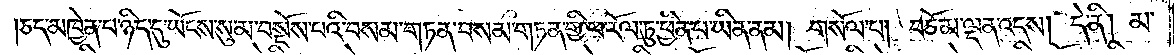ཅད་མཁྱེན་པ་ཉིད་དུ་ཡོངས་སུ་མ་བསྔོས་པའི་བསམ་གཏན་བསམ་གཏན་གྱི་ཕ་རོལ་ཏུ་ཕྱིན་པ་ཡིན་ནམ། གསོལ་པ། བཅོམ་ལྡན་འདས། དེ་ནི། མ་
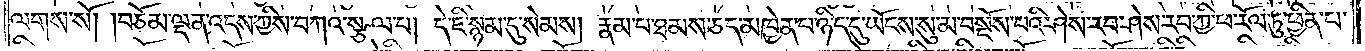ལགས་སོ། །བཅོམ་ལྡན་འདས་ཀྱིས་བཀའ་སྩལ་པ། དེ་ཇི་སྙམ་དུ་སེམས། རྣམ་པ་ཐམས་ཅད་མཁྱེན་པ་ཉིད་དུ་ཡོངས་སུ་མ་བསྔོས་པའི་ཤེས་རབ་ཀྱི་ཕ་རོལ་ཏུ་ཕྱིན་པ་
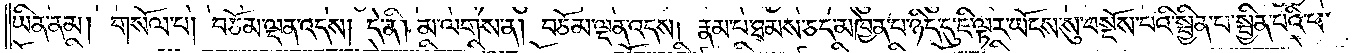ཡིན་ནམ། གསོལ་པ། བཅོམ་ལྡན་འདས། དེ་ནི། མ་ལགས་ན། བཅོམ་ལྡན་འདས། རྣམ་པ་ཐམས་ཅད་མཁྱེན་པ་ཉིད་དུ་ཇི་ལྟར་ཡོངས་སུ་བསྔོས་པའི་སྦྱིན་པ་སྦྱིན་པའི་ཕ་
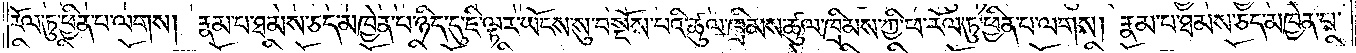རོལ་ཏུ་ཕྱིན་པ་ལགས། རྣམ་པ་ཐམས་ཅད་མཁྱེན་པ་ཉིད་དུ་ཇི་ལྟར་ཡོངས་སུ་བསྔོས་པའི་ཚུལ་ཁྲིམས་ཚུལ་ཁྲིམས་ཀྱི་ཕ་རོལ་ཏུ་ཕྱིན་པ་ལགས། རྣམ་པ་ཐམས་ཅད་མཁྱེན་པ་
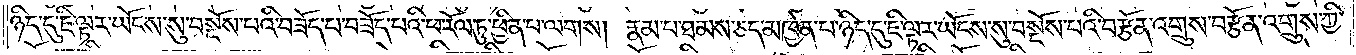ཉིད་དུ་ཇི་ལྟར་ཡོངས་སུ་བསྔོས་པའི་བཟོད་པ་བཟོད་པའི་ཕ་རོལ་ཏུ་ཕྱིན་པ་ལགས། རྣམ་པ་ཐམས་ཅད་མཁྱེན་པ་ཉིད་དུ་ཇི་ལྟར་ཡོངས་སུ་བསྔོས་པའི་བརྩོན་འགྲུས་བརྩོན་འགྲུས་ཀྱི་
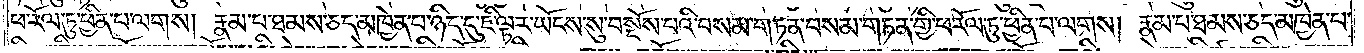ཕ་རོལ་ཏུ་ཕྱིན་པ་ལགས། རྣམ་པ་ཐམས་ཅད་མཁྱེན་པ་ཉིད་དུ་ཇི་ལྟར་ཡོངས་སུ་བསྔོས་པའི་བསམ་གཏན་བསམ་གཏན་གྱི་ཕ་རོལ་ཏུ་ཕྱིན་པ་ལགས། རྣམ་པ་ཐམས་ཅད་མཁྱེན་པ་
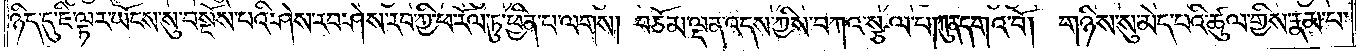ཉིད་དུ་ཇི་ལྟར་ཡོངས་སུ་བསྔོས་པའི་ཤེས་རབ་ཤེས་རབ་ཀྱི་ཕ་རོལ་ཏུ་ཕྱིན་པ་ལགས། བཅོམ་ལྡན་འདས་ཀྱིས་བཀའ་སྩལ་པ།ཀུན་དགའ་བོ། གཉིས་སུ་མེད་པའི་ཚུལ་གྱིས་རྣམ་པ་
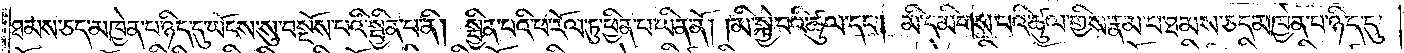ཐམས་ཅད་མཁྱེན་པ་ཉིད་དུ་ཡོངས་སུ་བསྔོས་པའི་སྦྱིན་པ་ནི། སྦྱིན་པའི་ཕ་རོལ་ཏུ་ཕྱིན་པ་ཡིན་ནོ། །མི་སྐྱེ་བའི་ཚུལ་དང༌། མི་དམིགས་པའི་ཚུལ་གྱིས་རྣམ་པ་ཐམས་ཅད་མཁྱེན་པ་ཉིད་དུ་
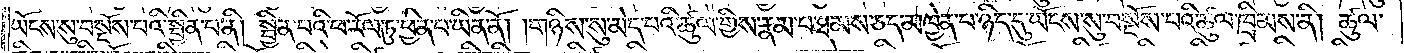ཡོངས་སུ་བསྔོས་པའི་སྦྱིན་པ་ནི། སྦྱིན་པའི་ཕ་རོལ་ཏུ་ཕྱིན་པ་ཡིན་ནོ། །གཉིས་སུ་མེད་པའི་ཚུལ་གྱིས་རྣམ་པ་ཐམས་ཅད་མཁྱེན་པ་ཉིད་དུ་ཡོངས་སུ་བསྔོས་པའི་ཚུལ་ཁྲིམས་ནི། ཚུལ་
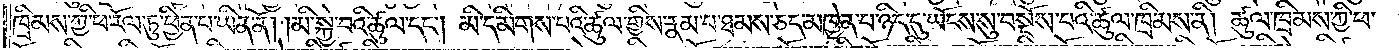ཁྲིམས་ཀྱི་ཕ་རོལ་ཏུ་ཕྱིན་པ་ཡིན་ནོ། །མི་སྐྱེ་བའི་ཚུལ་དང༌། མི་དམིགས་པའི་ཚུལ་གྱིས་རྣམ་པ་ཐམས་ཅད་མཁྱེན་པ་ཉིད་དུ་ཡོངས་སུ་བསྔོས་པའི་ཚུལ་ཁྲིམས་ནི། ཚུལ་ཁྲིམས་ཀྱི་ཕ་
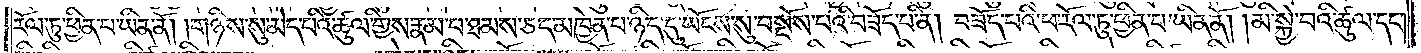རོལ་ཏུ་ཕྱིན་པ་ཡིན་ནོ། །གཉིས་སུ་མེད་པའི་ཚུལ་གྱིས་རྣམ་པ་ཐམས་ཅད་མཁྱེན་པ་ཉིད་དུ་ཡོངས་སུ་བསྔོས་པའི་བཟོད་པ་ནི། བཟོད་པའི་ཕ་རོལ་ཏུ་ཕྱིན་པ་ཡིན་ནོ། །མི་སྐྱེ་བའི་ཚུལ་དང༌།
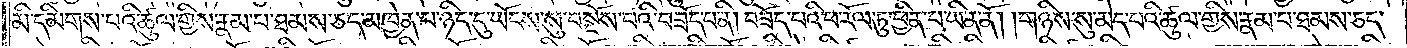མི་དམིགས་པའི་ཚུལ་གྱིས་རྣམ་པ་ཐམས་ཅད་མཁྱེན་པ་ཉིད་དུ་ཡོངས་སུ་བསྔོས་པའི་བཟོད་པ་ནི། བཟོད་པའི་ཕ་རོལ་ཏུ་ཕྱིན་པ་ཡིན་ནོ། །གཉིས་སུ་མེད་པའི་ཚུལ་གྱིས་རྣམ་པ་ཐམས་ཅད་
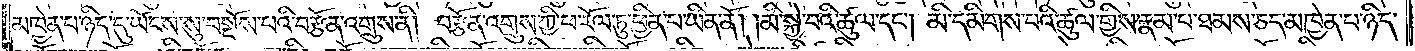མཁྱེན་པ་ཉིད་དུ་ཡོངས་སུ་བསྔོས་པའི་བརྩོན་འགྲུས་ནི། བརྩོན་འགྲུས་ཀྱི་ཕ་རོལ་ཏུ་ཕྱིན་པ་ཡིན་ནོ། །མི་སྐྱེ་བའི་ཚུལ་དང༌། མི་དམིགས་པའི་ཚུལ་གྱིས་རྣམ་པ་ཐམས་ཅད་མཁྱེན་པ་ཉིད་
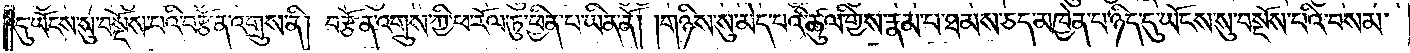དུ་ཡོངས་སུ་བསྔོས་པའི་བརྩོན་འགྲུས་ནི། བརྩོན་འགྲུས་ཀྱི་ཕ་རོལ་ཏུ་ཕྱིན་པ་ཡིན་ནོ། །གཉིས་སུ་མེད་པའི་ཚུལ་གྱིས་རྣམ་པ་ཐམས་ཅད་མཁྱེན་པ་ཉིད་དུ་ཡོངས་སུ་བསྔོས་པའི་བསམ་
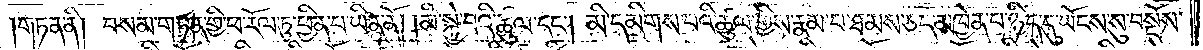གཏན་ནི། བསམ་གཏན་གྱི་ཕ་རོལ་ཏུ་ཕྱིན་པ་ཡིན་ནོ། །མི་སྐྱེ་བའི་ཚུལ་དང༌། མི་དམིགས་པའི་ཚུལ་གྱིས་རྣམ་པ་ཐམས་ཅད་མཁྱེན་པ་ཉིད་དུ་ཡོངས་སུ་བསྔོས་
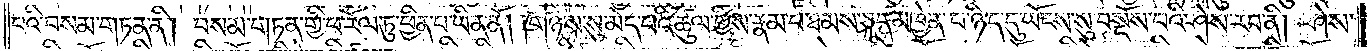པའི་བསམ་གཏན་ནི། བསམ་གཏན་གྱི་ཕ་རོལ་ཏུ་ཕྱིན་པ་ཡིན་ནོ། །གཉིས་སུ་མེད་པའི་ཚུལ་གྱིས་རྣམ་པ་ཐམས་ཅད་མཁྱེན་པ་ཉིད་དུ་ཡོངས་སུ་བསྔོས་པའི་ཤེས་རབ་ནི། ཤེས་
